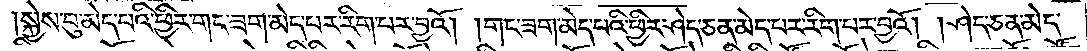།སྐྱེས་བུ་མེད་པའི་ཕྱིར་གང་ཟག་མེད་པར་རིག་པར་བྱའོ། །གང་ཟག་མེད་པའི་ཕྱིར་ཤེད་ཅན་མེད་པར་རིག་པར་བྱའོ། །ཤེད་ཅན་མེད་
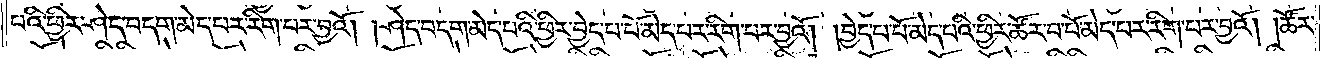པའི་ཕྱིར་ཤེད་བདག་མེད་པར་རིག་པར་བྱའོ། །ཤེད་བདག་མེད་པའི་ཕྱིར་བྱེད་པ་པོ་མེད་པར་རིག་པར་བྱའོ། །བྱེད་པ་པོ་མེད་པའི་ཕྱིར་ཚོར་བ་པོ་མེད་པར་རིག་པར་བྱའོ། །ཚོར་
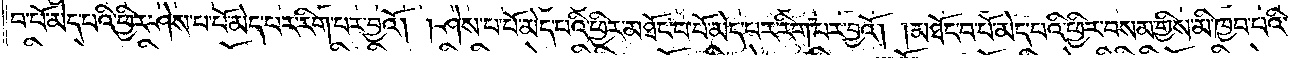བ་པོ་མེད་པའི་ཕྱིར་ཤེས་པ་པོ་མེད་པར་རིག་པར་བྱའོ། །ཤེས་པ་པོ་མེད་པའི་ཕྱིར་མཐོང་བ་པོ་མེད་པར་རིག་པར་བྱའོ། །མཐོང་བ་པོ་མེད་པའི་ཕྱིར་བསམ་གྱིས་མི་ཁྱབ་པའི་
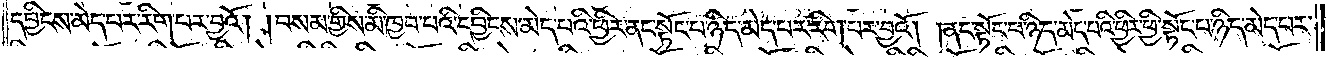དབྱིངས་མེད་པར་རིག་པར་བྱའོ། །བསམ་གྱིས་མི་ཁྱབ་པའི་དབྱིངས་མེད་པའི་ཕྱིར་ནང་སྟོང་པ་ཉིད་མེད་པར་རིག་པར་བྱའོ། །ནང་སྟོང་པ་ཉིད་མེད་པའི་ཕྱིར་ཕྱི་སྟོང་པ་ཉིད་མེད་པར་
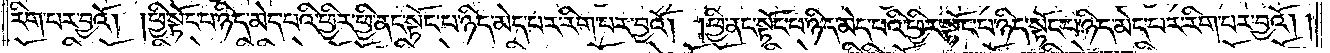རིག་པར་བྱའོ། །ཕྱི་སྟོང་པ་ཉིད་མེད་པའི་ཕྱིར་ཕྱི་ནང་སྟོང་པ་ཉིད་མེད་པར་རིག་པར་བྱའོ། །ཕྱི་ནང་སྟོང་པ་ཉིད་མེད་པའི་ཕྱིར་སྟོང་པ་ཉིད་སྟོང་པ་ཉིད་མེད་པར་རིག་པར་བྱའོ། །
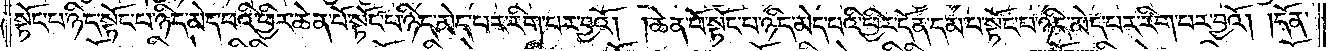སྟོང་པ་ཉིད་སྟོང་པ་ཉིད་མེད་པའི་ཕྱིར་ཆེན་པོ་སྟོང་པ་ཉིད་མེད་པར་རིག་པར་བྱའོ། །ཆེན་པོ་སྟོང་པ་ཉིད་མེད་པའི་ཕྱིར་དོན་དམ་པ་སྟོང་པ་ཉིད་མེད་པར་རིག་པར་བྱའོ། །དོན་
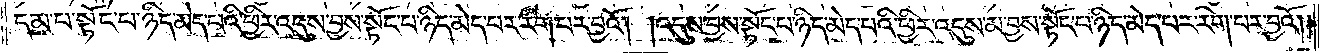དམ་པ་སྟོང་པ་ཉིད་མེད་པའི་ཕྱིར་འདུས་བྱས་སྟོང་པ་ཉིད་མེད་པར་རིག་པར་བྱའོ། །འདུས་བྱས་སྟོང་པ་ཉིད་མེད་པའི་ཕྱིར་འདུས་མ་བྱས་སྟོང་པ་ཉིད་མེད་པར་རིག་པར་བྱའོ། །
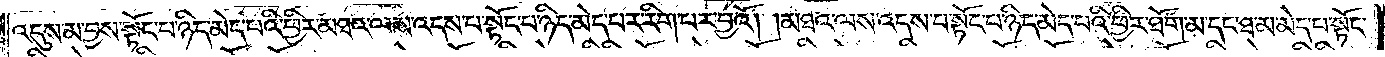འདུས་མ་བྱས་སྟོང་པ་ཉིད་མེད་པའི་ཕྱིར་མཐའ་ལས་འདས་པ་སྟོང་པ་ཉིད་མེད་པར་རིག་པར་བྱའོ། །མཐའ་ལས་འདས་པ་སྟོང་པ་ཉིད་མེད་པའི་ཕྱིར་ཐོག་མ་དང་ཐ་མ་མེད་པ་སྟོང་
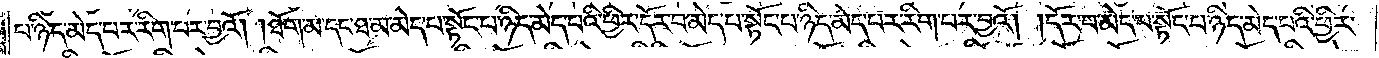པ་ཉིད་མེད་པར་རིག་པར་བྱའོ། །ཐོག་མ་དང་ཐ་མ་མེད་པ་སྟོང་པ་ཉིད་མེད་པའི་ཕྱིར་དོར་བ་མེད་པ་སྟོང་པ་ཉིད་མེད་པར་རིག་པར་བྱའོ། །དོར་བ་མེད་པ་སྟོང་པ་ཉིད་མེད་པའི་ཕྱིར་
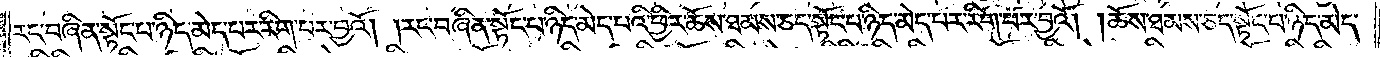རང་བཞིན་སྟོང་པ་ཉིད་མེད་པར་རིག་པར་བྱའོ། །རང་བཞིན་སྟོང་པ་ཉིད་མེད་པའི་ཕྱིར་ཆོས་ཐམས་ཅད་སྟོང་པ་ཉིད་མེད་པར་རིག་པར་བྱའོ། །ཆོས་ཐམས་ཅད་སྟོང་པ་ཉིད་མེད་
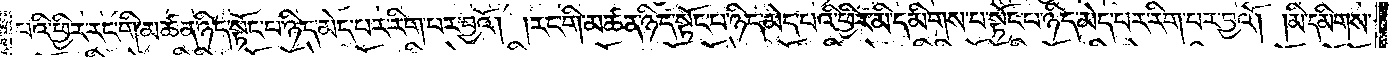པའི་ཕྱིར་རང་གི་མཚན་ཉིད་སྟོང་པ་ཉིད་མེད་པར་རིག་པར་བྱའོ། །རང་གི་མཚན་ཉིད་སྟོང་པ་ཉིད་མེད་པའི་ཕྱིར་མི་དམིགས་པ་སྟོང་པ་ཉིད་མེད་པར་རིག་པར་བྱའོ། །མི་དམིགས་
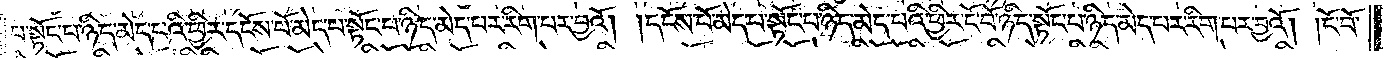པ་སྟོང་པ་ཉིད་མེད་པའི་ཕྱིར་དངོས་པོ་མེད་པ་སྟོང་པ་ཉིད་མེད་པར་རིག་པར་བྱའོ། །དངོས་པོ་མེད་པ་སྟོང་པ་ཉིད་མེད་པའི་ཕྱིར་ངོ་བོ་ཉིད་སྟོང་པ་ཉིད་མེད་པར་རིག་པར་བྱའོ། །ངོ་བོ་
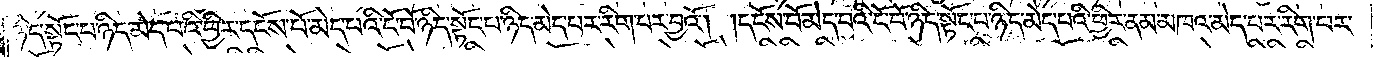ཉིད་སྟོང་པ་ཉིད་མེད་པའི་ཕྱིར་དངོས་པོ་མེད་པའི་ངོ་བོ་ཉིད་སྟོང་པ་ཉིད་མེད་པར་རིག་པར་བྱའོ། །དངོས་པོ་མེད་པའི་ངོ་བོ་ཉིད་སྟོང་པ་ཉིད་མེད་པའི་ཕྱིར་ནམ་མཁའ་མེད་པར་རིག་པར་
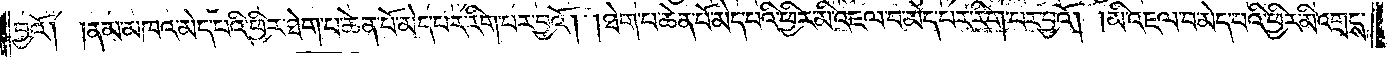བྱའོ། །ནམ་མཁའ་མེད་པའི་ཕྱིར་ཐེག་པ་ཆེན་པོ་མེད་པར་རིག་པར་བྱའོ། །ཐེག་པ་ཆེན་པོ་མེད་པའི་ཕྱིར་མི་འཇལ་བ་མེད་པར་རིག་པར་བྱའོ། །མི་འཇལ་བ་མེད་པའི་ཕྱིར་མི་འགྲངས་
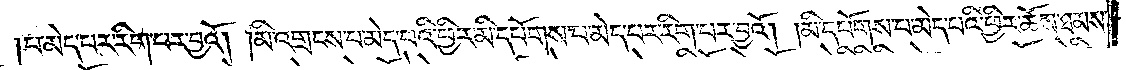པ་མེད་པར་རིག་པར་བྱའོ། །མི་འགྲངས་པ་མེད་པའི་ཕྱིར་མི་དཔོགས་པ་མེད་པར་རིག་པར་བྱའོ། །མི་དཔོགས་པ་མེད་པའི་ཕྱིར་ཆོས་ཐམས་
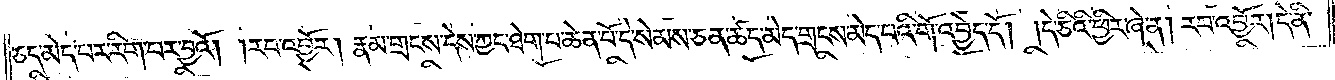ཅད་མེད་པར་རིག་པར་བྱའོ། །རབ་འབྱོར། རྣམ་གྲངས་དེས་ཀྱང་ཐེག་པ་ཆེན་པོ་དེ་སེམས་ཅན་ཚད་མེད་གྲངས་མེད་པའི་གོ་འབྱེད་དོ། །དེ་ཅིའི་ཕྱིར་ཞེ་ན། རབ་འབྱོར། དེ་ནི་
